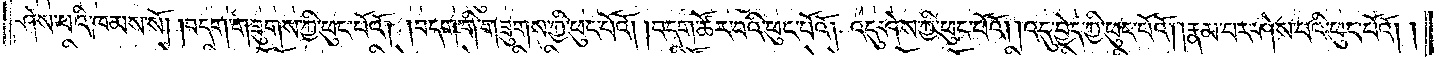ཤེས་པའི་ཁམས་སོ། །བདག་གཟུགས་ཀྱི་ཕུང་པོའོ། །བདག་གི་གཟུགས་ཀྱི་ཕུང་པོའོ། །བདག་ཚོར་བའི་ཕུང་པོའོ། འདུ་ཤེས་ཀྱི་ཕུང་པོའོ། །འདུ་བྱེད་ཀྱི་ཕུང་པོའོ། །རྣམ་པར་ཤེས་པའི་ཕུང་པོའོ། །
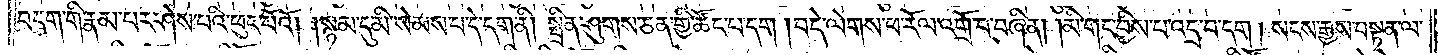བདག་གི་རྣམ་པར་ཤེས་པའི་ཕུང་པོའོ། །སྙམ་དུ་མི་སེམས་པ་དེ་དག་ནི། སྤྲིན་ཤུགས་ཅན་གྱི་ཚོང་པ་དག །བདེ་ལེགས་ཕ་རོལ་འགྲོ་བ་བཞིན། །མི་གང་བྱིས་པ་འདྲ་བ་དག། སངས་རྒྱས་བསྟན་ལ་
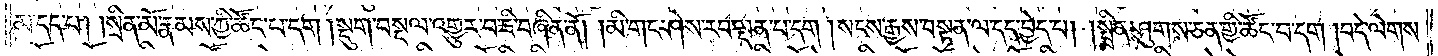མ་དད་པ། །སྲིན་མོ་རྣམས་ཀྱི་ཚོང་པ་དག །སྡུག་བསྔལ་འགྱུར་བ་ཇི་བཞིན་ནོ། །མི་གང་ཤེས་རབ་ལྡན་པ་དག །སངས་རྒྱས་བསྟན་ལ་དད་བྱེད་པ། །སྤྲིན་ཤུགས་ཅན་གྱི་ཚོང་བ་དག །བདེ་ལེགས་
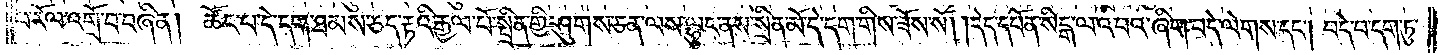ཕ་རོལ་འགྲོ་བ་བཞིན། ཚོང་པ་དེ་དག་ཐམས་ཅད་རྟའི་རྒྱལ་པོ་སྤྲིན་གྱི་ཤུགས་ཅན་ལས་ལྷུང་ནས་སྲིན་མོ་དེ་དག་གིས་ཟོས་སོ། །དེད་དཔོན་སིངྒ་ལ་འབའ་ཞིག་བདེ་ལེགས་དང༌། བདེ་བ་དག་ཏུ་
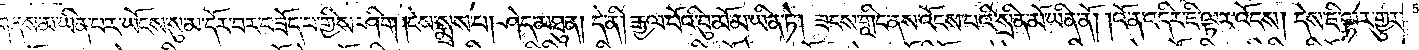གནས་མ་ཡིན་པར་ཡོངས་སུ་མ་དོར་བར་བཟོད་པ་གྱིས་ཤིག །དེས་སྨྲས་པ། ཤེད་མཐུན། དེ་ནི། རྒྱལ་པོའི་བུ་མོ་མ་ཡིན་ཏེ། ཟངས་གླིང་ནས་འོངས་པའི་སྲིན་མོ་ཡིན་ནོ། །འོ་ན་འདིར་ཇི་ལྟར་འོངས། དེས་ཇི་ལྟར་གྱུར་
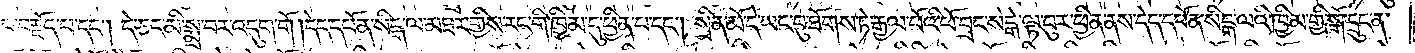པ་བརྗོད་པ་དང༌། དེ་ཅང་མི་སྨྲ་བར་འདུག་གོ །དེད་དཔོན་སིངྒ་ལ་མཐར་གྱིས་རང་གི་ཁྱིམ་དུ་ཕྱིན་པ་དང༌། སྲིན་མོ་དེ་ཡང་བུ་ཐོགས་ཏེ་རྒྱལ་པོའི་ཕོ་བྲང་སེངྒེ་ལྟ་བུར་ཕྱིན་ནས་དེད་དཔོན་སིངྒ་ལའི་ཁྱིམ་གྱི་སྒོ་དྲུང་ན་
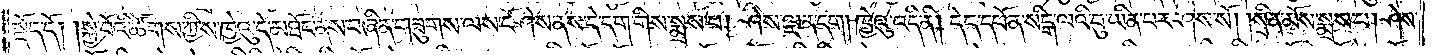སྡོད་དོ། །སྐྱེ་བོའི་ཚོགས་ཀྱིས་ཁྱེའུ་དེ་མཐོང་ནས་བཞིན་གཟུགས་ལས་ངོ་ཤེས་ནས་དེ་དག་གིས་སྨྲས་པ། ཤེས་ལྡན་དག། ཁྱེའུ་འདི་ནི། དེད་དཔོན་སིངྒ་ལའི་བུ་ཡིན་པར་ཤེས་སོ། །སྲིན་མོས་སྨྲས་པ། ཤེས་
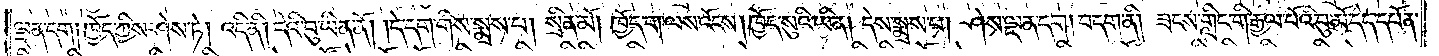ལྡན་དག། ཁྱོད་ཀྱིས་ཤེས་ཏེ། འདི་ནི། དེའི་བུ་ཡིན་ནོ། །དེ་དག་གིས་སྨྲས་པ། སྲིན་མོ། ཁྱོད་ག་ལས་འོངས། ཁྱོད་སུའི་ཡིན། དེས་སྨྲས་པ། ཤེས་ལྡན་དག། བདག་ནི། ཟངས་གླིང་གི་རྒྱལ་པོའི་བུ་མོ་དེད་དཔོན་
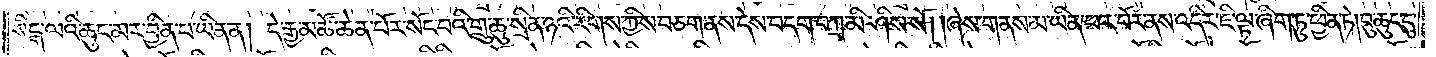སིངྒ་ལའི་ཆུང་མར་བྱིན་པ་ཡིན་ན། དེ་རྒྱ་མཚོ་ཆེན་པོར་སོང་བའི་གྲུ་ཆུ་སྲིན་ཉའི་རིགས་ཀྱིས་བཅག་ནས་དེས་བདག་བཀྲ་མི་ཤིས་སོ། །ཞེས་གནས་མ་ཡིན་པར་བོར་ནས་འདིར་ཇི་ལྟ་ཞིག་ཏུ་ཕྱིན་ཏེ། བུ་ཆུང་ངུ་
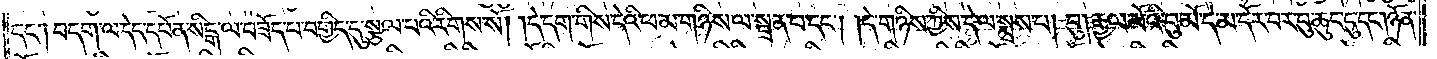དང༌། བདག་ལ་དེད་དཔོན་སིངྒ་བཟོད་པ་བགྱིད་དུ་སྩལ་པའི་རིགས་སོ། །དེ་དག་གིས་དེའི་ཕ་མ་གཉིས་ལ་སྦྲན་པ་དང༌། །དེ་གཉིས་ཀྱིས་དེ་ལ་སྨྲས་པ། བུ། རྒྱལ་པོའི་བུ་མོ་དེ་མ་དོར་བར་བུ་ཆུང་ངུ་དང༌། ཉོན་
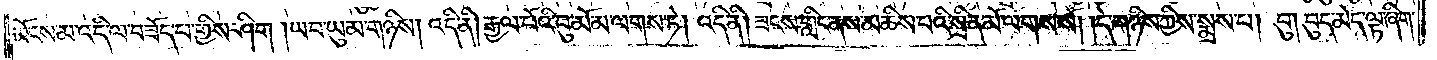མོངས་མ་འདི་ལ་བཟོད་པ་གྱིས་ཤིག །ཡབ་ཡུམ་གཉིས། འདི་ནི། རྒྱལ་པོའི་བུ་མོ་མ་ལགས་ཏེ། འདི་ནི། ཟངས་གླིང་ནས་མཆིས་པའི་སྲིན་མོ་ལགས་སོ། །དེ་གཉིས་ཀྱིས་སྨྲས་པ། བུ། བུད་མེད་ལྟ་ཞིག་
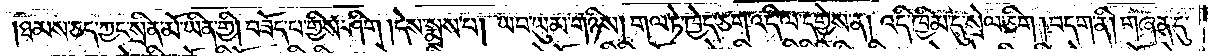ཐམས་ཅད་ཀྱང་སྲིན་མོ་ཡིན་གྱི། བཟོད་པ་གྱིས་ཤིག །དེས་སྨྲས་པ། ཡབ་ཡུམ་གཉིས། གལ་ཏེ་ཁྱེད་ཅག་འདི་ལ་དགྱེས་ན། འདི་ཁྱིམ་དུ་སྲེལ་ཅིག །བདག་ནི། གཞན་དུ་
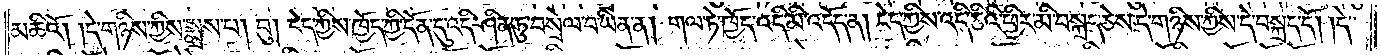མཆིའོ། །དེ་གཉིས་ཀྱིས་སྨྲས་པ། བུ། ངེད་ཀྱིས་ཁྱོད་ཀྱི་དོན་དུ་འདི་ཤིན་ཏུ་བསྲེལ་བ་ཡིན་ན། གལ་ཏེ་ཁྱོད་འདི་མི་འདོད་ན། ངེད་ཀྱིས་འདི་ཅིའི་ཕྱིར་མི་བསྐྲད་ཅེས་དེ་གཉིས་ཀྱིས་དེ་བསྐྲད་དོ། །དེ་
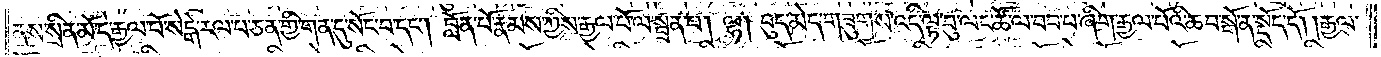ནས་སྲིན་མོ་དེ་རྒྱལ་པོ་སེངྒེ་རལ་པ་ཅན་གྱི་གན་དུ་སོང་བ་དང༌། བློན་པོ་རྣམས་ཀྱིས་རྒྱལ་པོ་ལ་སྦྲན་པ། ལྷ། བུད་མེད་གཟུགས་འདི་ལྟ་བུ་ལང་ཚོ་ལ་བབ་པ་ཞིག་རྒྱལ་པོའི་ཆབ་སྒོ་ན་སྡོད་དོ། །རྒྱལ་
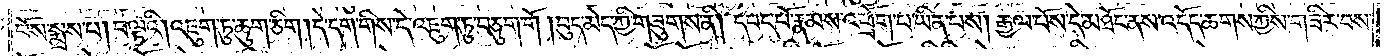པོས་སྨྲས་པ། བལྟའི། འཇུག་ཏུ་ཆུག་ཅིག །དེ་དག་གིས་དེ་འཇུག་ཏུ་བཅུག་གོ །བུད་མེད་ཀྱི་གཟུགས་ནི། དབང་པོ་རྣམས་འཕྲོག་པ་ཡིན་པས། རྒྱལ་པོས་དེ་མཐོང་ནས་འདོད་ཆགས་ཀྱིས་གཟིར་བས་
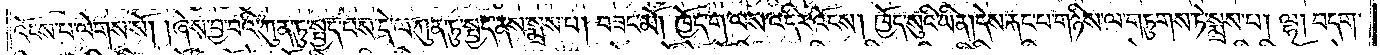འོངས་པ་ལེགས་སོ། །ཞེས་བྱ་བའི་ཀུན་ཏུ་སྤྱད་པས་དེ་ལ་ཀུན་ཏུ་སྤྱད་ནས་སྨྲས་པ། བཟང་མོ། ཁྱོད་ག་ལས་འདིར་འོངས། ཁྱོད་སུའི་ཡིན། དེས་རྐང་པ་གཉིས་ལ་གཏུགས་ཏེ་སྨྲས་པ། ལྷ། བདག་
